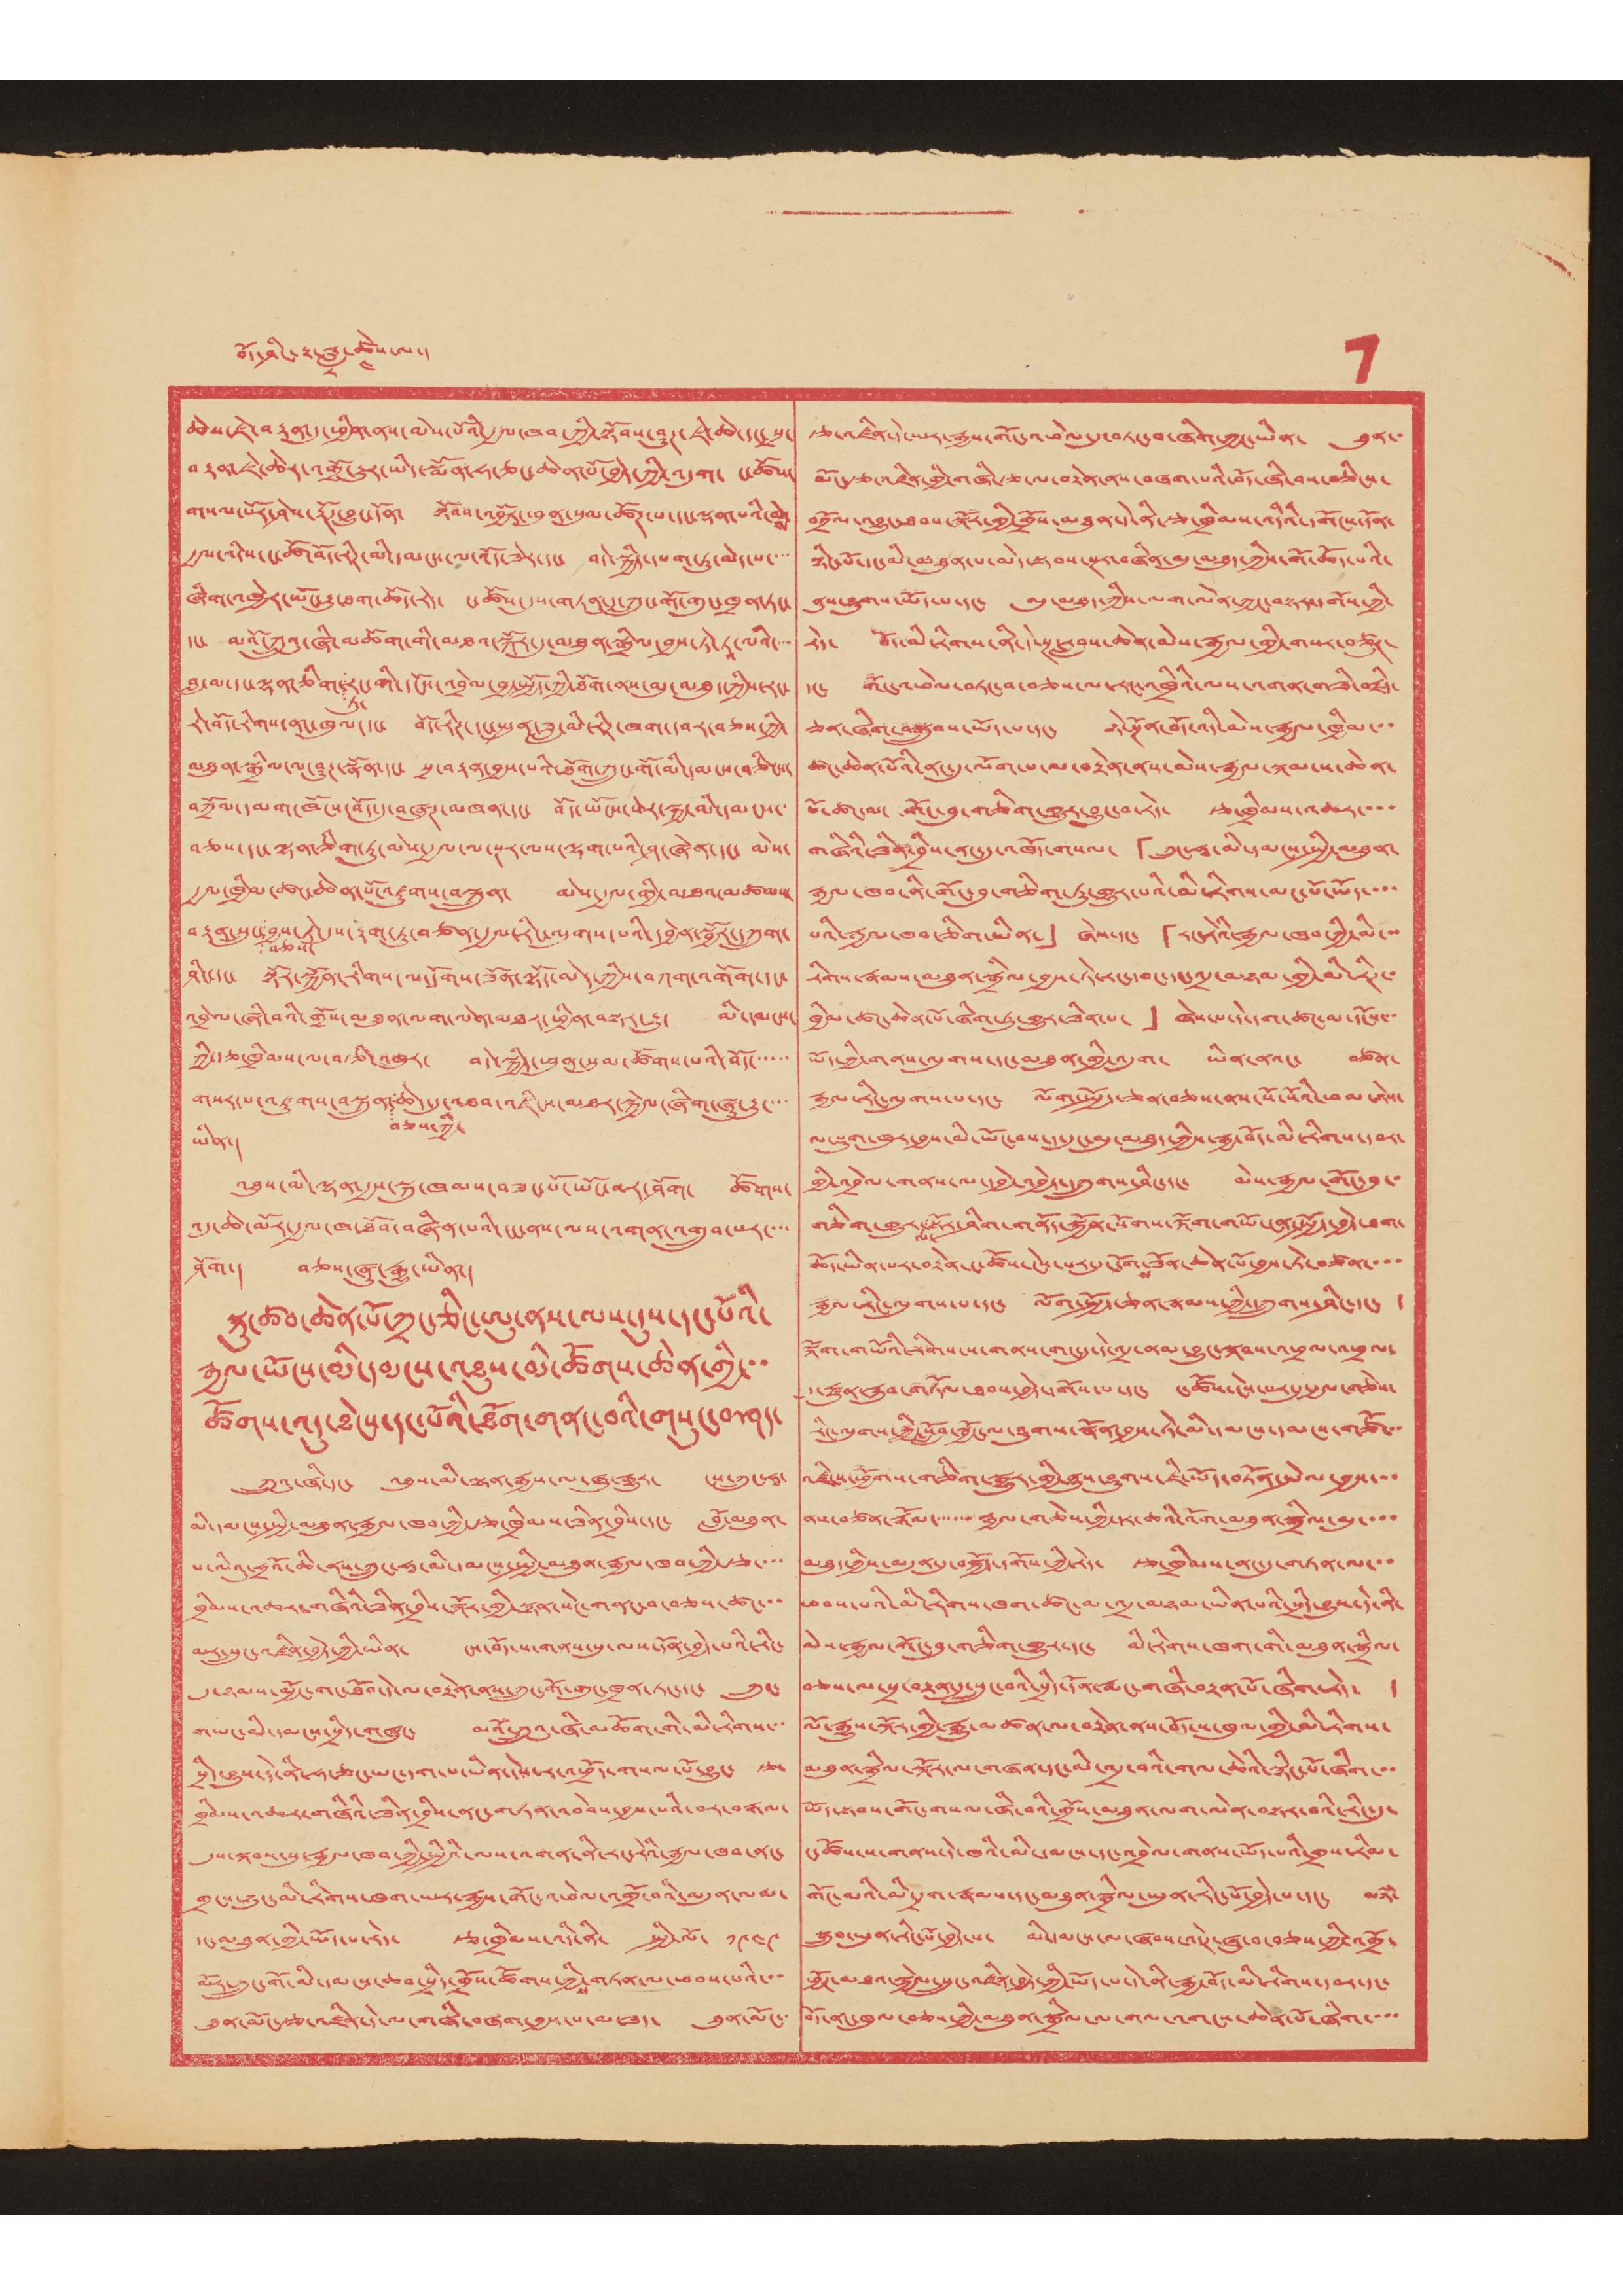བོད་ཤིང་རྟ་ཟླ་
༨
ཚེས་
༤
ལ་། 1
ཆེས་ཇེ་བརྟན་དུ་ཕྱིན་ནས་མེས་པོའི་རྒྱལ་ཁབ་ཀྱི་སྟོབས་ཤུཊ་ཇེ་ཆེ་དང་ སྲ་
བརྟན་ཇེ་ཆེར་འགྲོ་རྒྱུར་ཡིད་སྨོན་ཧ་ཅང་ཆེན་པོ་བྱེད་ཀྱི་འདུག་ ང་ཚོས་
གསལ་པོར་ཤེས་རྟོཊ་བྱུང་དོན་ སྟོབས་འབྱོར་ཕུན་སུམ་ཚོཊ་པ་དང་ལྡན་པའི་མེས་
རྒྱལ་འདིས་ང་ཚོ་བོད་རིཊ་མི་དམངས་ལ་འོད་ཟེར་དང་ བདེ་སྐྱིད་དཔག་ཏུ་མེད་པ་་་་
ཞིག་འཁྱེར་ཡོང་རྒྱུ་ཐག་ཆོད་རེད་ ང་ཚོས་དུས་གཏན་དུ་ཀྲུང་གོ་གུང་ཁྲན་ཏང་
དང་ མའོ་ཀྲུའུ་ཞི་མཆོག་གི་མཐའ་སྐོར་དུ་མཐུན་སྒྲིལ་བྱས་ཏེ་ཏཱ་ལའི་་་་
བླ་མ་དང་ལྷན་ཅིག་
ཏུ་
རང་གི་དངོས་འབྲེལ་བྱ་སྤྱོད་ཀྱི་ཐོག་ནས་མུ་མཐུད་ཀྱིས་རང་
རེ་བོད་རིགས་ནང་ཁུལ་དང་ བོད་རིཊ་དང་སྤུན་ཟླ་མི་རིཊ་ཁག་དབར་བཅས་ཀྱི་
མཐུན་སྒྲིལ་ལ་ཤུཊ་སྣོན་དང་ སྲ་བརྟན་བྱས་པའི་ཐོག་ཀྲུང་གོ་མི་དམངས་བཅིངས་
བཀྲོལ་དམག་ཁོངས་བོད་དུ་བཞུཊ་མཁན་དང་ བོད་ཡོངས་སེར་སྐྱ་མི་དམངས་་
བཅས་དང་ལྷན་གཅིག་ཏུ་མེས་རྒྱལ་ལ་སྔར་ལས་ལྷག་པའི་ཤ་ཞེན་དང་ མེས་
རྒྱལ་ཁྱིམ་ཚང་ཆེན་པོ་འཛུགས་བསྐྲུན་ མེས་རྒྱལ་གྱི་མཐའ་མཚམས་
བརྟན་སྲུང་
བཅས་
བྱས་ཏེ་དུས་རྟག་ཏུ་བཙན་རྒྱལ་རིང་ལུགས་པའི་དབྱེན་སྦྱོར་དཀྲུག་
ཤིང་དང་ སྟོར་སྐྱོན་རིགས་ལ་དོགས་ཟོན་ལྟོད་མེད་ཀྱིས་བཀག་འགོག་དང་
འབྲེལ་ཞི་བའི་གྲོས་མཐུན་ལག་ལེན་མཐར་ཕྱིན་བསྟར་རྒྱུ་ མི་དམངས་
ཀྱི་རྩ་ཁྲིམས་ལ་བརྩི་འཁུར་ བདེ་སྐྱིད་ཕུན་སུམ་ཚོགས་པའི་བོད་་་་་་
གསར་པ་འཛུགས་བསྐྲུན་
བཅས་ཀྱི་
ཆེད་དུ་འཐབ་འཛིངས་མཐར་སྐྱེལ་ཞིག་ཞུ་རྒྱུ་་་་
ཡིན་།
འཐུས་མི་ལྷན་རྒྱས་སྐུ་ཁམས་བཟང་པོ་ཡོང་བར་ཤོག་ ཚོགས་
འདུ་ཆེ་མོར་རྒྱལ་ཁ་ཐོབ་བཞིན་པའི་ངང་ནས་ལས་འགན་འགྲུབ་པར་་་་
ཤོག་། བཅས་ཞུ་རྒྱུ་ཡིན་།
སྐུ་ཚབ་ཆེན་པོ་ཀྲང་ཅིང་ཨུ་ནས་ལས་དུས་དང་པོའི་
རྒྱལ་ཡོངས་མི་དམངས་འཐུས་མི་ཚོགས་ཆེན་གྱི་་་
ཚོགས་འདུ་ཐེངས་དང་པོའི་ཐོག་གནང་བའི་གསུང་བཤད་
ཀྲུའུ་ཞི་དང་ འཐུས་མི་ལྷན་རྒྱས་ལ་ཞུ་རྒྱུར་ ངས་ཀྲུང་ཧཱ་
མི་དམངས་སྤྱི་མཐུན་རྒྱལ་ཁབ་ཀྱི་རྩ་ཁྲིམས་ཟིན་བྲིས་དང་ བློ་མཐུན་
པ་ལིའུ་ཧྲའོ་ཆི་ནས་ཀྲུང་ཧཱ་མི་དམངས་སྤྱི་མཐུན་རྒྱལ་ཁབ་ཀྱི་རྩ་་་་
ཁྲིམས་འཆར་གཞིའི་ཟིན་བྲིས་སྐོར་གྱི་སྙན་སེང་གནང་བ་བཅས་ཚང་་་
མར་སྲུང་འཛིན་བྱེད་ཀྱི་ཡིན་ ངས་བོད་ས་གནས་སུ་ལས་དོན་བྱེད་པའི་རིང་
དུ་ཉམས་མྱོང་གང་ཐོབ་དེ་ལ་བརྟེན་ནས་ཀྲུང་གོ་གུང་ཁྲན་ཏང་དང་ ཀྲུང་
གཡང་མི་དམངས་སྲིད་གཞུང་ མའོ་ཀྲུའུ་ཞི་མཆོག་གི་མི་རིགས་་་
སྲིད་བྱུས་དེ་ནི་ཧ་ཅང་ཡང་དག་པ་ཡིན་དེས་ར་འཕྲོད་གསལ་པོ་བྱུང་ རྩ་
ཁྲིམས་འཆར་གཞིའི་ཟིན་བྲིས་ནང་གཏན་འབེབས་བྱས་པའི་བར་བརྒལ་
དུས་སྐབས་སུ་རྒྱལ་ཁབ་ཀྱི་སྤྱིའི་ལས་འགན་ནི་རང་རེའི་རྒྱལ་ཁབ་ནང་
གྲངས་ཉུང་མི་རིགས་ཁག་ཡར་རྒྱས་གོང་འཕེལ་འགྲོ་བའི་མདུན་ལམ་
དང་མཐུན་གྱི་ཡོད་པ་རེད་ རྩ་ཁྲིམས་འདི་ནི་ སྤྱི་ལོ་ ༡༩༥༩
ལོར་ཀྲུང་གོ་མི་དམངས་ཆབ་སྲིད་གྲོས་ཚོགས་ཀྱིས་གཏན་ལ་ཕབས་པའི་་་
ཐུན་མོང་རྩ་འཛིན་དེ་ལ་གཞི་བཞག་བྱས་པ་མ་ཟད་ ཐུན་མོང་་
རྩ་འཛིན་དེ་ཡར་རྒྱས་གོང་འཕེལ་དུ་བཏང་བ་ཞིག་ཀྱང་ཡིན་ ཐུན་
མོང་རྩ་འཛིན་གྱི་གཞི་རྩ་ལ་བརྟེན་ནས་བཞག་པའི་བོད་ཞི་བས་བཅིངས་
བཀྲོལ་འབྱུང་ཐབས་སྐོར་གྱི་གྲོས་མཐུན་དེ་ནི་རྩ་ཁྲིམས་འདིའི་དགོངས་དོན་
སྙིང་པོ་དང་མི་མཐུན་པ་མེད་སྟབས་སྔར་བཞིན་མུ་མཐུད་ཀྱིས་གོ་ཆོད་པའི་
ནུས་ཤུགས་ཡོད་པ་དང་ མུ་མཐུད་ཀྱིས་ལག་ལེན་ཀྱང་བསྟར་དགོས་ཀྱི་
རེད་ བོད་མི་རིགས་ནི་དེ་སྔ་རླབས་ཆེན་མེས་རྒྱལ་གྱི་གསར་བཙུཊ་
དང་ གོང་འཕེལ་བཏང་བ་བཅས་ལ་རང་འཁྲིའི་ལས་འགན་གཟི་བརྗིད་
ཅན་ཞིག་བསྒྲུབས་ཡོད་པ་དང་ དེ་སྔོན་བོད་འདི་མེས་རྒྱལ་ཁྱིམ་་་
ཚང་ཆེན་པོའི་ནང་དུ་ལོག་པ་ལ་བརྟེན་ནས་མེས་རྒྱལ་སྐམ་ས་ཆེན་
པོ་ཚང་མ་ གོང་བུ་གཅིག་གྱུར་བྱུང་བ་རེད་ རྩ་ཁྲིམས་འཆར་་་་
གཞིའི་ཟིན་བྲིས་ནང་དུ་འཁོད་གསལ་ 「ཀྲུང་ཧཱ་མི་དམངས་སྤྱི་མཐུན་
རྒྱལ་ཁབ་ནི་གོང་བུ་གཅིག་ཏུ་གྱུར་པའི་མི་རིགས་མང་པོ་ཡོད་་་་
པའི་རྒྱལ་ཁབ་ཅིག་ཡིན་」 ཞེས་དང་ 「རང་རེའི་རྒྱལ་ཁབ་ཀྱི་མི་་་
རིགས་རྣམས་མཐུན་སྒྲིལ་བྱས་ཏེ་རང་དབང་དང་འདྲ་མཉམ་གྱི་མི་རིཊ་་
ཁྱིམ་ཚང་ཆེན་པོ་ཞིག་ཏུ་གྱུར་ཟིན་པ་」 ཞེས་པ་དེ་དག་ཚང་མ་དངོས་་་
ཡོད་ཀྱི་གནས་ལུགས་དང་མཐུན་གྱི་འདུག་ ཡིན་ནའང་ བཙན་
རྒྱལ་རིང་ལུགས་པ་དང་ ལོག་སྤྱོད་ཅན་བཅས་ནས་སོ་སོའི་ཕམ་ཉེས་
ལ་སྡུག་ཁུར་བྱས་མི་ཡོང་བས་ད་དུང་མུ་མཐུད་ཀྱིས་རྒྱ་བོད་མི་རིགས་དབར་
གྱི་འབྲེལ་གནས་ལ་དབྱེ་འབྱེད་སྐྲུགས་ཤིང་དང་ མེས་རྒྱལ་གོང་བུ་་
གཅིག་གྱུར་
ལ་
སྟོར་ཤིག་གནོད་སྐྱོན་སོགས་ལྐོག་གཡོ་ངན་སྤྱོད་བྱེད་ཐག་
ཆོད་ཡིན་པར་བརྟེན་ང་ཚོས་ངེས་པར་དུ་དོག་
ས
ཟོན་ཆེན་པོ་བྱས་ཏེ་བཙན་་་་
རྒྱལ་རིང་ལུགས་པ་དང་ ལོག་སྤྱོད་ཅན་རྣམས་ཀྱི་དཀྲུགས་ཤིང་དང་ །
ལྐོག་གཡོའི་རིགས་ས་གནས་གང་དུ་དེ་འདྲ་ནམ་བྱུང་སྐབས་འཕྲལ་འཕྲལ་
དུ་རྫུན་རྐུབ་གཏོལ་ཐབས་བྱེད་དགོས་པ་དང་ ང་ཚོས་ངེས་པར་དུ་རྒྱལ་གཅེས་
རིང་ལུགས་ཀྱི་སློབ་སྦྱོང་ལ་ཤུགས་སྣོན་བྱས་ཏེ་མི་དམངས་མངས་གཙོ་་་
འཛིངས་ཕྱོགས་གཅིག་སྒྱུར་གྱི་ནུས་ཤུགས་ཇི་ཡོད་བཏོན་སྤེལ་བྱས་་་
ནས་བཙན་རྒོལ་་་་་་་རྒྱལ་གཅེས་ཀྱི་དར་ཆའི་འོག་མཐུན་སྒྲིལ་མུ་་་་
མཐུད་ཀྱིས་མདུན་དུ་བསྐྱོད་དགོས་ཀྱི་རེད་ རྩ་ཁྲིམས་ནང་དུ་གཏན་ལ་་་
ཕབས་པའི་མི་རིགས་ཁག་ཚང་མ་འདྲ་མཉམ་ཡིན་པའི་སྲིད་བྱུས་དེ་ནི་
མེས་རྒྱལ་གོང་བུ་གཅིག་གྱུར་དང་ མི་རིགས་ཁག་གི་མཐུན་སྒྲིལ་
བཅས་ལ་སྲ་བརྟན་དུ་སྲུང་བའི་སྲིད་དོན་རྨང་གཞི་བརྟན་པོ་ཞིག་རེད་ །
ལོ་རྒྱུས་སྐོར་གྱི་རྒྱུ་མཚན་ལ་བརྟེན་ནས་བོད་ས་ཁུལ་གྱི་མི་རིགས་
མཐུན་སྒྲིལ་སྐོར་ལ་གཞན་དང་མི་འདྲ་བའི་གལ་ཆེའི་སྙིང་པོ་ཞིག་་་
ཡོད་སྟབས་གོང་གསལ་ཞི་བའི་གྲོས་མཐུན་ལག་ལེན་བསྟར་བའི་རིང་དུ་
ང་ཚོས་ས་གནས་དེ་ཁའི་མི་དམངས་དང་འབྲེལ་གནས་ཡོད་པའི་གྲས་རིམ་
གོང་མའི་མི་དྲག་རྣམས་དང་མཐུན་སྒྲིལ་ཡུན་རིང་པོ་བྱེད་པ་དང་ མཉཾ་
སྒྲུབ་ཡུན་རིང་པོ་བྱེད་པ་ མི་དམངས་ལ་ཞབས་འདེཊ་ཞུ་བ་བཅས་ཀྱི་འགྲོ་
ཕྱོཊ་མཐའ་སྐྱེལ་སྲུང་འཛིན་བྱེད་ཀྱི་ཡོད་པ་དེ་ནི་རྒྱ་བོད་མི་རིགས་དབར་དང་
བོད་ནང་ཁུལ་བཅས་ཀྱི་མཐུན་སྒྲིལ་ལ་གལ་འགངས་ཆེན་པོ་ཞིག་་་་
